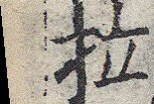拉
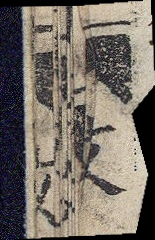文二
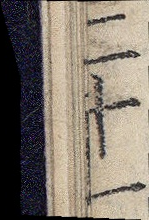二十一
